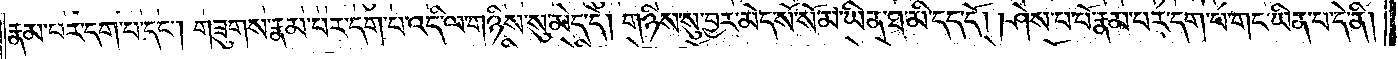རྣམ་པར་དག་པ་དང༌། གཟུགས་རྣམ་པར་དག་པ་འདི་ལ་གཉིས་སུ་མེད་དེ། གཉིས་སུ་བྱར་མེད་སོ་སོ་མ་ཡིན་ཐ་མི་དད་དོ། །ཤེས་པ་པོ་རྣམ་པར་དག་པ་གང་ཡིན་པ་དེ་ནི།
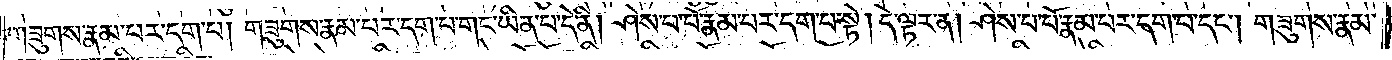གཟུགས་རྣམ་པར་དག་པ། གཟུགས་རྣམ་པར་དག་པ་གང་ཡིན་པ་དེ་ནི། ཤེས་པ་པོ་རྣམ་པར་དག་པ་སྟེ། དེ་ལྟར་ན། ཤེས་པ་པོ་རྣམ་པར་དག་པ་དང༌། གཟུགས་རྣམ་
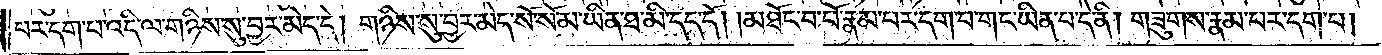པར་དག་པ་འདི་ལ་གཉིས་སུ་བྱར་མེད་དེ། གཉིས་སུ་བྱར་མེད་སོ་སོ་མ་ཡིན་ཐ་མི་དད་དོ། །མཐོང་བ་པོ་རྣམ་པར་དག་པ་གང་ཡིན་པ་དེ་ནི། གཟུགས་རྣམ་པར་དག་པ།
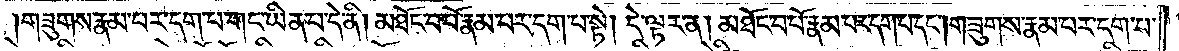གཟུགས་རྣམ་པར་དག་པ་གང་ཡིན་པ་དེ་ནི། མཐོང་བ་པོ་རྣམ་པར་དག་པ་སྟེ། དེ་ལྟར་ན། མཐོང་བ་པོ་རྣམ་པར་དག་པ་དང༌། གཟུགས་རྣམ་པར་དག་པ་
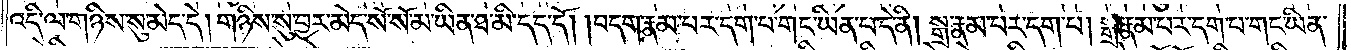འདི་ལ་གཉིས་སུ་མེད་དེ། གཉིས་སུ་བྱར་མེད་སོ་སོ་མ་ཡིན་ཐ་མི་དད་དོ། །བདག་རྣམ་པར་དག་པ་གང་ཡིན་པ་དེ་ནི། སྒྲ་རྣམ་པར་དག་པ། སྒྲ་རྣམ་པར་དག་པ་གང་ཡིན་
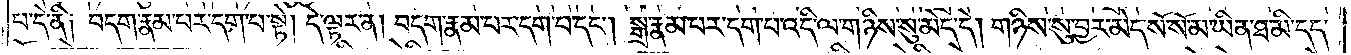པ་དེ་ནི༑ བདག་རྣམ་པར་དག་པ་སྟེ། དེ་ལྟར་ན། བདག་རྣམ་པར་དག་པ་དང༌། སྒྲ་རྣམ་པར་དག་པ་འདི་ལ་གཉིས་སུ་མེད་དེ། གཉིས་སུ་བྱར་མེད་སོ་སོ་མ་ཡིན་ཐ་མི་དད་
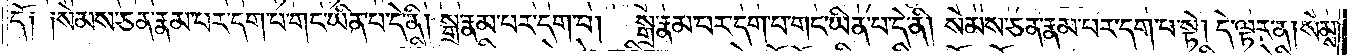དོ༑ ༑སེམས་ཅན་རྣམ་པར་དག་པ་གང་ཡིན་པ་དེ་ནི། སྒྲ་རྣམ་པར་དག་པ། སྒྲ་རྣམ་པར་དག་པ་གང་ཡིན་པ་དེ་ནི། སེམས་ཅན་རྣམ་པར་དག་པ་སྟེ། དེ་ལྟར་ན། སེམས་
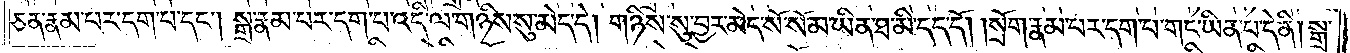ཅན་རྣམ་པར་དག་པ་དང༌། སྒྲ་རྣམ་པར་དག་པ་འདི་ལ་གཉིས་སུ་མེད་དེ། གཉིས་སུ་བྱར་མེད་སོ་སོ་མ་ཡིན་ཐ་མི་དད་དོ། །སྲོག་རྣམ་པར་དག་པ་གང་ཡིན་པ་དེ་ནི། སྒྲ་
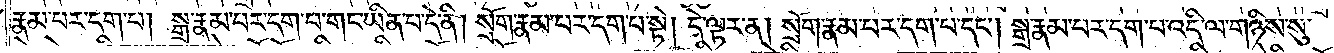རྣམ་པར་དག་པ། སྒྲ་རྣམ་པར་དག་པ་གང་ཡིན་པ་དེ་ནི། སྲོག་རྣམ་པར་དག་པ་སྟེ། དེ་ལྟར་ན། སྲོག་རྣམ་པར་དག་པ་དང༌། སྒྲ་རྣམ་པར་དག་པ་འདི་ལ་གཉིས་སུ་
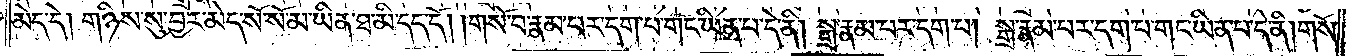མེད་དེ། གཉིས་སུ་བྱར་མེད་སོ་སོ་མ་ཡིན་ཐ་མི་དད་དོ། །གསོ་བ་རྣམ་པར་དག་པ་གང་ཡིན་པ་དེ་ནི། སྒྲ་རྣམ་པར་དག་པ། སྒྲ་རྣམ་པར་དག་པ་གང་ཡིན་པ་དེ་ནི། གསོ་
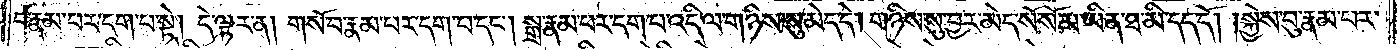བ་རྣམ་པར་དག་པ་སྟེ། དེ་ལྟར་ན། གསོ་བ་རྣམ་པར་དག་པ་དང༌། སྒྲ་རྣམ་པར་དག་པ་འདི་ལ་གཉིས་སུ་མེད་དེ། གཉིས་སུ་བྱར་མེད་སོ་སོ་མ་ཡིན་ཐ་མི་དད་དོ། །སྐྱེ་བུ་རྣམ་པར་
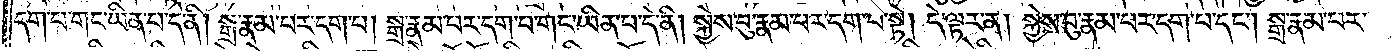དག་པ་གང་ཡིན་པ་དེ་ནི། སྒྲ་རྣམ་པར་དག་པ། སྒྲ་རྣམ་པར་དག་པ་གང་ཡིན་པ་དེ་ནི། སྐྱེས་བུ་རྣམ་པར་དག་པ་སྟེ། དེ་ལྟར་ན། སྐྱེས་བུ་རྣམ་པར་དག་པ་དང༌། སྒྲ་རྣམ་པར་
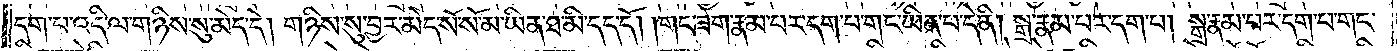དག་པ་འདི་ལ་གཉིས་སུ་མེད་དེ། གཉིས་སུ་བྱར་མེད་སོ་སོ་མ་ཡིན་ཐ་མི་དད་དོ། །གང་ཟག་རྣམ་པར་དག་པ་གང་ཡིན་པ་དེ་ནི། སྒྲ་རྣམ་པར་དག་པ། སྒྲ་རྣམ་པར་དག་པ་གང་
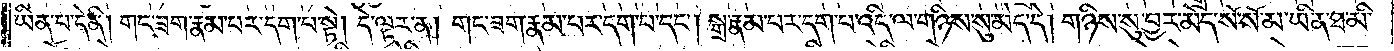ཡིན་པ་དེ་ནི། གང་ཟག་རྣམ་པར་དག་པ་སྟེ། དེ་ལྟར་ན། གང་ཟག་རྣམ་པར་དག་པ་དང༌། སྒྲ་རྣམ་པར་དག་པ་འདི་ལ་གཉིས་སུ་མེད་དེ། གཉིས་སུ་བྱར་མེད་སོ་སོ་མ་ཡིན་ཐ་མི་
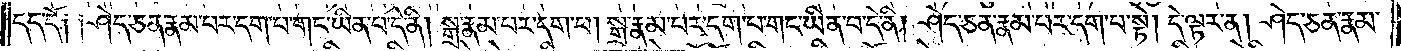དད་དོ༑ ༑ཤེད་ཅན་རྣམ་པར་དག་པ་གང་ཡིན་པ་དེ་ནི། སྒྲ་རྣམ་པར་དག་པ། སྒྲ་རྣམ་པར་དག་པ་གང་ཡིན་པ་དེ་ནི། ཤེད་ཅན་རྣམ་པར་དག་པ་སྟེ། དེ་ལྟར་ན། ཤེད་ཅན་རྣམ་
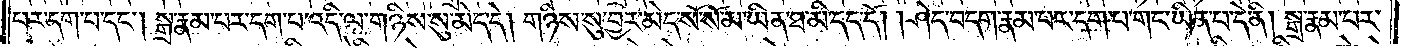པར་དག་པ་དང༌། སྒྲ་རྣམ་པར་དག་པ་འདི་ལ་གཉིས་སུ་མེད་དེ། གཉིས་སུ་བྱར་མེད་སོ་སོ་མ་ཡིན་ཐ་མི་དད་དོ། །ཤེད་བདག་རྣམ་པར་དག་པ་གང་ཡིན་པ་དེ་ནི། སྒྲ་རྣམ་པར་
